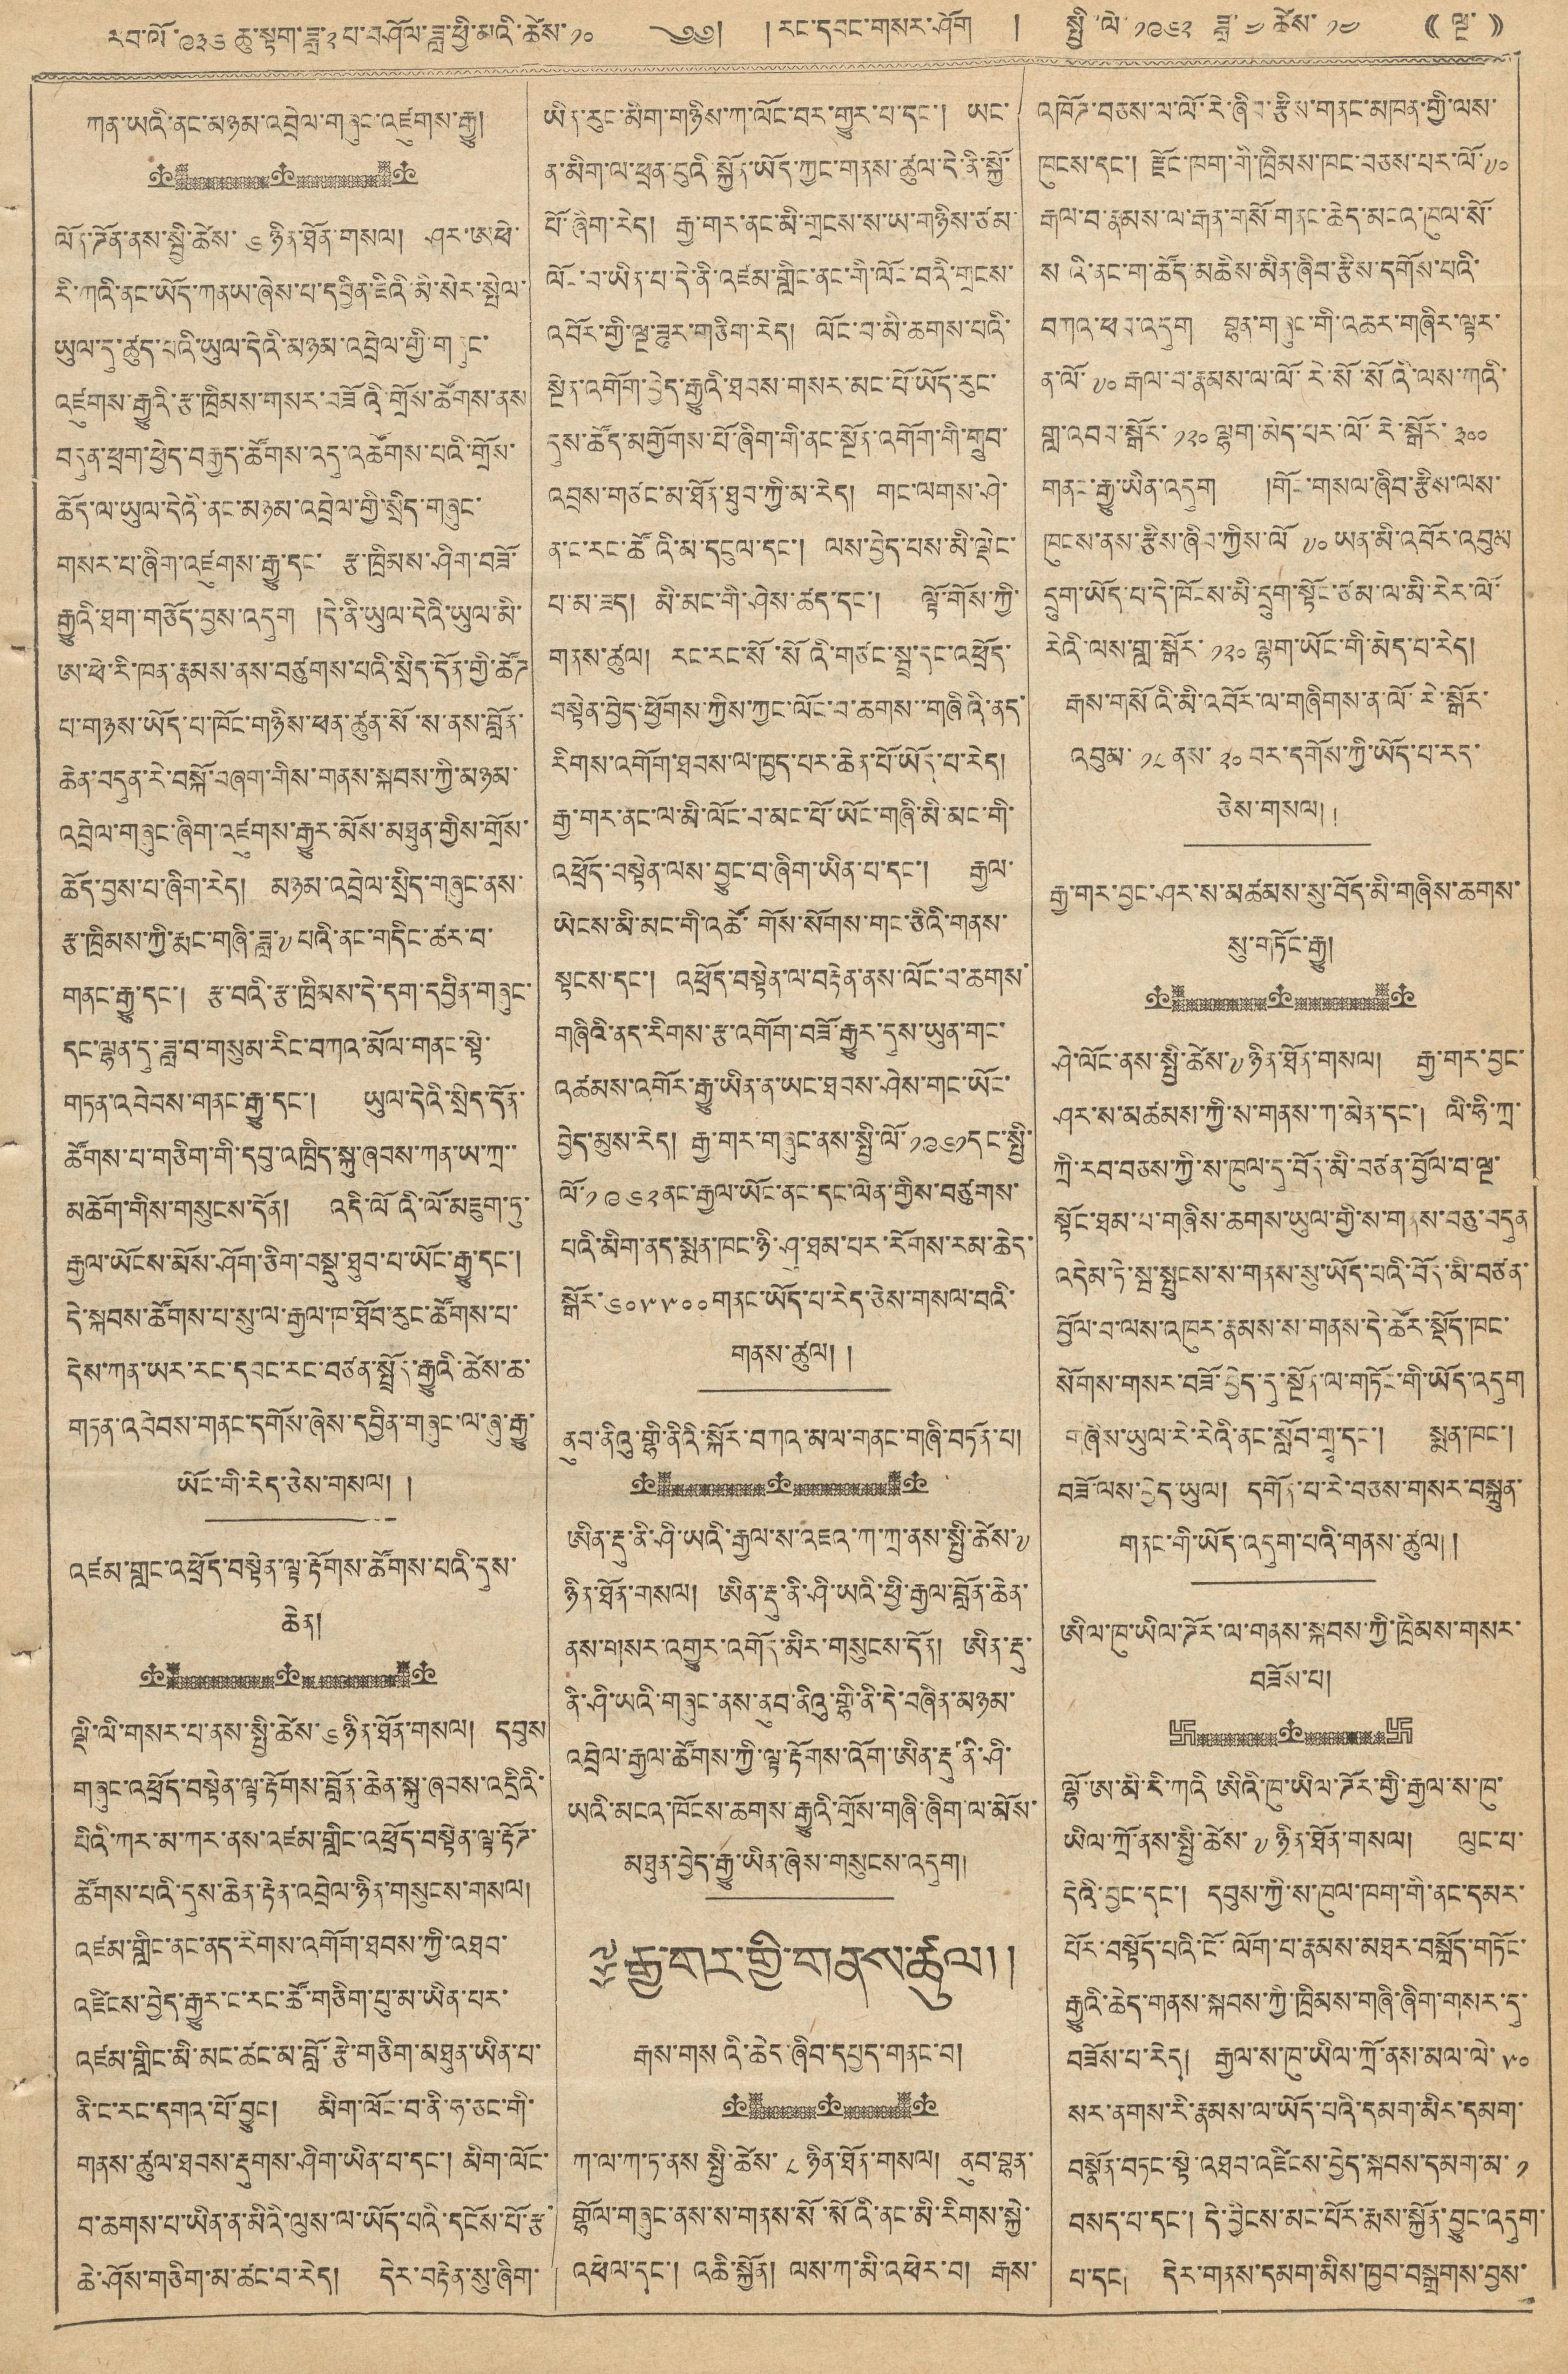རབ་ལོ་༩༣༦ ཆུ་སྟག་ཟླ་༢པ་བཤོལ་ཟླ་ཕྱི་མའི་ཚེས་ ༡༠ ༄༅། །རང་དབང་གསར་ཤོག ། སྤྱི་ལོ་ ༡༩༦༣ ཟླ་ ༤ ཚེས་ ༡༤ (( ལྔ་ ))
ཀན་ཡའི་ནང་མཉམ་འབྲེལ་གཞུང་འཛུགས་རྒྱུ།
ལོན་ཌོན་ནས་སྤྱི་ཚེས་ ༦ ཉིན་ཐོན་གསལ། ཤར་ཨཕེ་
རི་ཀའི་ནང་ཡོད་ཀནཡ་ཞེས་པ་དབྱིན་ཇིའི་མི་སེར་སྤེལ་
ཡུལ་དུ་ཚུད་པའི་ཡུལ་དེའི་མཉམ་འབྲེལ་གྱི་གཞུང་
འཛུགས་རྒྱུའི་རྩ་ཁྲིམས་གསར་བཟོའི་གྲོས་ཚོགས་ནས
བདུན་ཕྲག་ཕྱེད་བརྒྱུད་ཚོགས་འདུ་འཚོགས་པའི་གྲོས་
ཆོད་ལ་ཡུལ་དེའི་ནང་མཉམ་འབྲེལ་གྱི་སྲིད་གཞུང་
གསར་པ་ཞིག་འཛུགས་རྒྱུ་དང་ རྩ་ཁྲིམས་ཤིག་བཟོ་
རྒྱུའི་ཐག་གཅོད་བྱས་འདུག །དེ་ནི་ཡུལ་དེའི་ཡུལ་མི་
ཨ་ཕེ་རི་ཁན་རྣམས་ནས་བཙུགས་པའི་སྲིད་དོན་གྱི་ཚོཌ་
པ་གཉས་ཡོད་པ་ཁོང་གཉིས་ཕན་ཚུན་སོ་ས་ནས་བློན་
ཆེན་བདུན་རེ་བསྐོ་བཞག་གིས་གནས་སྐབས་ཀྱི་མཉམ་
འབྲེལ་གཞུང་ཞིག་འཛུགས་རྒྱུར་མོས་མཐུན་གྱིས་གྲོས་
ཆོད་བྱས་པ་ཞིག་རེད། མཉམ་འབྲེལ་སྲིད་གཞུང་ནས་
རྩ་ཁྲིམས་ཀྱི་རྨང་གཞི་ཟླ་༧ པའི་ནང་གདིང་ཚར་བ་
གནང་རྒྱུ་དང་། རྩ་བའི་རྩ་ཁྲིམས་དེ་དག་དབྱིན་གཞུང་
དང་ལྷན་དུ་ཟླ་བ་གསུམ་རིང་བཀའ་མོལ་གནང་སྟེ་
གཏན་འབེབས་གནང་རྒྱུ་དང་། ཡུལ་དེའི་སྲིད་དོན་
ཚོགས་པ་གཅིག་གི་དབུ་འཁྲིད་སྐུ་ཞབས་ཀུན་ཡ་ཀྲ་་
མཆོག་གིས་གསུངས་དོན། འདི་ལོའི་ལོ་མཇུག་ཏུ་
རྒྱལ་ཡོངས་མོས་ཤོག་ཅིག་བསྡུ་ཐུབ་པ་ཡོང་རྒྱུ་དང་།
དེ་སྐབས་ཚོགས་པ་སུ་ལ་རྒྱལ་ཁ་ཐོབ་རུང་ཚོགས་པ་
དེས་ཀན་ཡར་རང་དབང་རང་བཙན་སྤྲོད་རྒྱུའི་ཚེས་ཆ་
གཏན་འབེབས་གནང་དགོས་ཞེས་དབྱིན་གཞུང་ལ་ཞུ་རྒྱུ།
ཡོང་གི་རེད་ཅེས་གསལ། །
ཡིན་རུང་མིག་གཉིས་ཀ་ལོང་བར་གྱུར་པ་དང་། ཡང་
ན་མིག་ལ་ཕྲན་བུའི་སྐྱོན་ཡོད་ཀྱང་གནས་ཚུལ་དེ་ནི་སྐྱོ་
པོ་ཞིག་རེད། རྒྱ་གར་ནང་མི་གྲངས་ས་ཡ་གཉིས་ཙམ་
ལོང་བ་ཡིན་པ་དེ་ནི་འཛམ་གླིང་ནང་གི་ལོང་བའི་གྲངས་
འབོར་གྱི་ལྔ་ཟུར་གཅིག་རེད། ལོང་བ་མི་ཆགས་པའི་
སྔེན་འགོག་བྱེད་རྒྱུའི་ཐབས་གསར་མང་པོ་ཡོད་རུང་
དུས་ཚོད་མགྱོགས་པོ་ཞིག་གི་ནང་སྔོན་འགོག་གི་གྲུབ་
འབྲས་གཙང་མ་ཐོན་ཐུབ་ཀྱི་མ་རེད། གང་ལགས་ཤེ་
ན་ང་རང་ཚོའི་མ་དངུལ་དང་། ལས་བྱེད་པས་མི་ལྡེང་
པ་མ་ཟད། མི་མང་གི་ཤེས་ཚད་དང་། ལྟོ་གོས་ཀྱི་
གནས་ཚུལ། རང་རང་སོ་སོའི་གཙང་སྦྲ་དང་འཕྲོད་
བསྟེན་བྱེད་ཕྱོགས་ཀྱིས་ཀྱང་ལོང་བ་ཆགས་་གཞིའི་ནད་
རིགས་འགོག་ཐབས་ལ་ཁྱད་པར་ཆེན་པོ་ཡོད་པ་རེད།
རྒྱ་གར་ནང་ལ་མི་ལོང་བ་མང་པོ་ཡོང་གཞི་མི་མང་གི་
འཕྲོད་བསྟེན་ལས་བྱུང་བ་ཞིག་ཡིན་པ་དང་། རྒྱལ་
ཡེངས་མི་མང་གི་འཚོ་གོས་སོགས་གང་ཅིའི་གནས་
སྟངས་དང་། འཕྲོད་བསྟེན་ལ་བརྟེན་ནས་ལོང་བ་ཆགས་
གཞིའི་ནད་རིགས་རྩ་འགོག་བཟོ་རྒྱུར་དུས་ཡུན་གང་
འཚམས་འགོར་རྒྱུ་ཡིན་ན་ཡང་ཐབས་ཤེས་གང་ཡོང་
བྱེད་མུས་རེད། རྒྱ་གར་གཞུང་ནས་སྤྱི་ལོ་ ༡༩༦༡ དང་སྤྱི་
ལོ་ ༡༩༦༢ ནང་རྒྱལ་ཡོང་ནང་དང་ལེན་གྱིས་བཙུགས་
པའི་མིག་ནད་སྨན་ཁང་ཉི་ཤུ་ཐམ་པར་རོགས་རམ་ཆེད་
སྒོར་༦༠༥༥༠༠ གནང་ཡོད་པ་རེད་ཅེས་གསལ་བའི་
གནས་ཚུལ། །
འཁོཌ་བཅས་ལ་ལོ་རེ་ཞིབ་རྩིས་གནང་མཁན་གྱི་ལས་
ཁུངས་དང་། རྫོང་ཁག་གི་ཁྲིམས་ཁང་བཅས་པར་ལོ་༧༠
རྒལ་བ་རྣམས་ལ་རྒན་གསོ་གནང་ཆེད་མངའ་ཁུལ་སོ་
སའི་ནང་ག་ཚོད་མཆིས་མིན་ཞིབ་རྩིས་དགོས་པའི་
བཀའ་ཕབ་འདུག བྷན་གཞུང་གི་འཆར་གཞིར་ལྟར་
ན་ལོ་ ༡༠ རྒལ་བ་རྣམས་ལ་ལོ་རེ་སོ་སོའི་ལས་ཀའི་
གླ་འབབ་སྒོར་ ༡༢༠ ལྷག་མེད་པར་ལོ་རེ་སྒོར་ ༣༠༠
གནང་རྒྱུ་ཡིན་འདུག །གོང་གསལ་ཞིབ་རྩིས་ལས་
ཁུངས་ནས་རྩིས་ཞིབ་ཀྱིས་ལོ ༧༠ ཡན་མི་འབོར་འབུམ
དྲུག་ཡོད་པ་དེ་ཁོངས་མི་དྲུག་སྟོང་ཙམ་ལ་མི་རེར་ལོ་
རེའི་ལས་གླ་སྒོར་ ༡༢༠ ལྷག་ཡོང་གི་མེད་པ་རེད།
རྒས་གསོའི་མི་འབོར་ལ་གཞིགས་ན་ལོ་རེ་སྒོར་
འབུམ་ ༡༨ ནས་ ༢༠ བར་དགོས་ཀྱི་ཡོད་པ་རད་
ཅེས་གསལ།།
རྒྱ་གར་བྱང་ཤར་ས་མཚམས་སུ་བོད་མི་གཞིས་ཆགས་
སུ་གཏོང་རྒྱུ།
ཤེ་ལོང་ནས་སྤྱི་ཚེས་༧ ཉིན་ཐོན་གསལ། རྒྱ་གར་བྱང་
ཤར་ས་མཚམས་ཀྱི་ས་གནས་ཀ་མེན་དང་། ལི་ཧི་ཀྲ་
ཀྲི་རབ་བཅས་ཀྱི་ས་ཁུལ་དུ་བོད་མི་བཙན་བྱོལ་བ་ལྔ་
སྟོང་ཐམ་པ་གཞིས་ཆགས་ཡུལ་གྱི་ས་གནས་བཅུ་བདུན་
འདེམ་ཏེ་སྦ་སྤུངས་ས་གནས་སུ་ཡོད་པའི་བོད་མི་བཙན་
བྱོལ་བ་ལས་འཁུར་རྣམས་ས་གནས་དེ་ཚོར་སྡོད་ཁང་
སོགས་གསར་བཟོ་བྱེད་དུ་སྔོན་ལ་གཏོང་གི་ཡོད་འདུག
གཞིས་ཡུལ་རེ་རེའི་ནང་སློབ་གྲྭ་དང་། སྨན་ཁང་།
བཟོ་ལས་བྱེད་ཡུལ། དགོན་པ་རེ་བཅས་གསར་བསྐྲུན་
གནང་གི་ཡོད་འདུག་པའི་གནས་ཚུལ།།
འཛམ་གླང་འཕྲོད་བསྟེན་ལྟ་རྟོགས་ཚོགས་པའི་དུས་
ཆེན།
ཨིན་རྡུ་ནི་ཤི་ཡའི་རྒྱལ་ས་འཇའ་ཀ་ཀྲ་ནས་སྤྱི་ཚེས་༧
ཉིན་ཐོན་གསལ། ཨིན་རྡུ་ནི་ཤི་ཡའི་ཕྱི་རྒྱལ་བློན་ཆེན་
ནས་གསར་འགྱུར་འགོད་མིར་གསུངས་དོན། ཨིན་རྡུ་
ནི་ཤི་ཡའི་གཞུང་ནས་ནུབ་ནིའུ་གྷི་ནི་དེ་བཞིན་མཉམ་
འབྲེལ་རྒྱལ་ཚོགས་ཀྱི་ལྟ་རྟོགས་འོག་ཨིན་རྡུ་ནི་ཤི་
ཡའི་མངའ་ཁོངས་ཆགས་རྒྱུའི་གྲོས་གཞི་ཞིག་ལ་མོས་
མཐུན་བྱེད་རྒྱུ་ཡིན་ཞེས་གསུངས་འདུག།
ཨིལ་ཁུ་ཡིལ་ཌོར་ལ་གནས་སྐབས་ཀྱི་ཁྲིམས་གསར་
བཟོས་པ།
ལྡི་ལི་གསར་པ་ནས་སྤྱི་ཚེས་ ༦ ཉིན་ཐོན་གསལ། དབུས
གཞུང་འཕྲོད་བསྟེན་ལྟ་རྟོགས་བློན་ཆེན་སྐུ་ཞབས་འདྲིའི་
པིའི་ཀར་མ་ཀར་ནས་འཛམ་གླིང་འཕྲོད་བསྟེན་ལྟ་རྟོཌ་
ཚོགས་པའི་དུས་ཆེན་རྟེན་འབྲེལ་ཉིན་གསུངས་གསལ།
འཛམ་གླིང་ནང་ནད་རིགས་འགོག་ཐབས་ཀྱི་འཐབ་
འཛིངས་བྱེད་རྒྱུར་ང་རང་ཚོ་གཅིག་པུ་མ་ཡིན་པར་
འཛམ་གླིང་མི་མང་ཚང་མ་བློ་རྩེ་གཅིག་མཐུན་ཡིན་པ་
ནི་ང་རང་དགའ་པོ་བྱུང། མིག་ལོང་བ་ནི་ཧ་ཅང་གི་
གནས་ཚུལ་ཐབས་རྡུགས་ཤིག་ཡིན་པ་དང་། མིག་ལོང་
བ་ཆགས་པ་ཡིན་ན་མིའི་ལུས་ལ་ཡོད་པའི་དངོས་པོ་རྩ་
ཆེ་ཤོས་གཅིག་མ་ཚང་བ་རེད། དེར་བརྟེན་སུ་ཞིག་
༈ རྒྱ་གར་གྱི་གནས་ཚུལ།།
རྒས་གསའི་ཆེད་ཞིབ་དཔྱད་གནང་བ།
ཀ་ལ་ཀ་ཏ་ནས སྤྱི་ཚེས་ ༨ ཉིན་ཐོན་གསལ། ནུབ་བྷན་
གྷོལ་གཞུང་ནས་ས་གནས་སོ་སོའི་ནང་མི་རིགས་སྐྱེ་
འཕེལ་དང་། འཆི་སྐྱོན། ལས་ཀ་མི་འཕེར་བ། རྒས་
ལྷོ་ཨ་མི་རི་ཀའི ཨིའི་ཁུ་ཡིལ་ཌོར་གྱི་རྒྱལ་ས་ཁུ་
ཡིལ་ཀྲོ་ནས་སྤྱི་ཚེས་ ༧ ཉིན་ཐོན་གསལ། ལུང་པ་
དེའི་བྱང་དང་། དབུས་ཀྱི་ས་ཁུལ་ཁག་གི་ནང་དམར་
པོར་བསྟོད་པའི་ངོ་ལོག་པ་རྣམས་མཐར་བསྐྲོད་གཏོང་
རྒྱུའི་ཆེད་གནས་སྐབས་ཀྱི་ཁྲིམས་གཞི་ཞིག་གསར་དུ་
བཟོས་པ་རེད། རྒྱལ་ས་ཁུ་ཡིལ་ཀྲོ་ནས་མལ་ལེ་ ༥༠
སར་ནགས་རི་རྣམས་ལ་ཡོད་པའི་དམག་མིར་དམག་
བསྣོན་བཏང་སྟེ་འཐབ་འཛིངས་བྱེད་སྐབས་དམག་མ་ ༡
བསད་པ་དང་། དེ་བྱིངས་མང་པོར་རྨས་སྐྱོན་བྱུང་འདུག་
པ་དང། དེར་གནས་དམག་མིས་ཁྱབ་བསྒྲགས་བྱས་
ནུབ་ནིའུ་གྷི་ནིའི་སྐོར་བཀའ་མལ་གནང་གཞི་བཏོན་པ།
